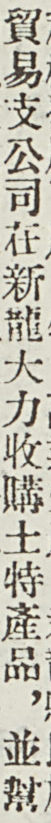貿易支公司在新龍大力收購土特產品，並幫
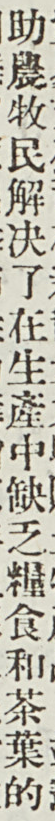助農牧民解決了在生產中缺乏糧食和茶葉的
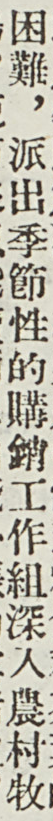困難，派出季節性的購銷工作組深入農村牧
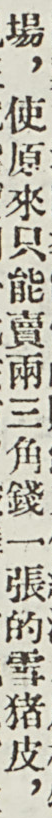場，使原來只能賣兩三角錢一張的雪豬皮，
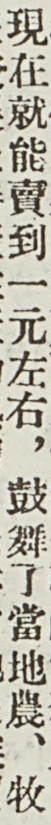現在就能賣到一元左右，鼓舞了當地農、牧
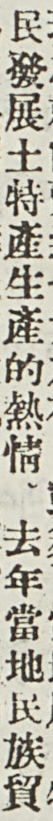民發展土特產生產地熱情。去年當地民族貿
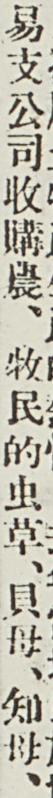易支公司收購農、牧民的虫草、貝母、知母、
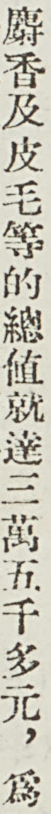麝香及皮毛等的總值就達三萬五千多元，爲
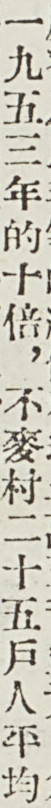一九五三年的十倍，不麥村二十五戶人平均
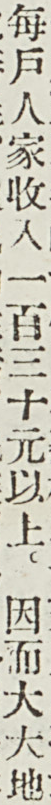每戶人家收入一百三十元以上。因而大大地
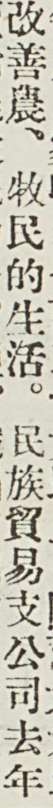改善農、牧民的生活。民族貿易支公司去年
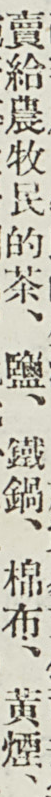賣給農牧民的茶、鹽、鐵鍋、棉布、黃煙、
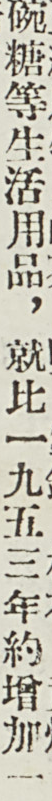碗糖等生活用品，就比一九五三年的約增加一
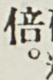倍。
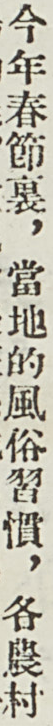今年春節裏，當地的風俗習慣，各農村
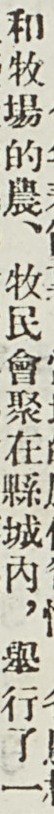和牧場的農、牧民會聚在縣城內，舉行了一
